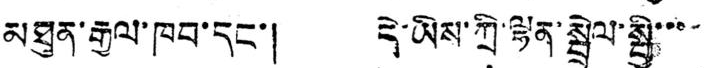མཐུན་རྒྱལ་ཁབ་དང་། དེ་ཡིས་ཀྲི་ལྷན་སྦྲེལ་སྤྱི་་་
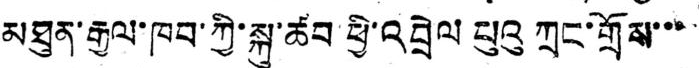མཐུན་རྒྱལ་ཁབ་ཀྱི་སྐུ་ཚབ་ཕྱི་འབྲེལ པུའུ ཀྲང་གྲོས་་་
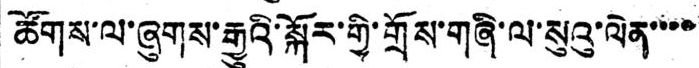ཚོགས་ལ་ཞུགས་རྒྱུའི་སྐོར་གྱི་གྲོས་གཞི་ལ་སུའུ་ལེན་་་་
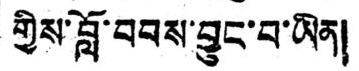གྱིས་བློ་བབས་བྱུང་བ་ཡིན།
